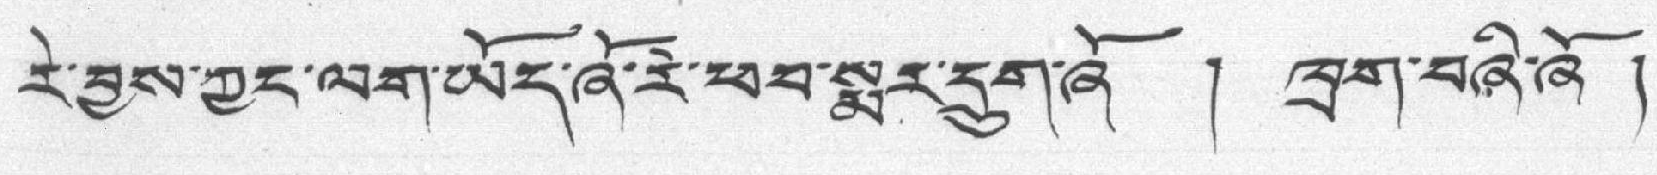རེ་བྱས་ཀྱང་ལག་ཡོད་ཞོ་རེ་ཕབ་སྨར་དྲུག་ཞོ ། ཁྲག་བཞི་ཞོ །
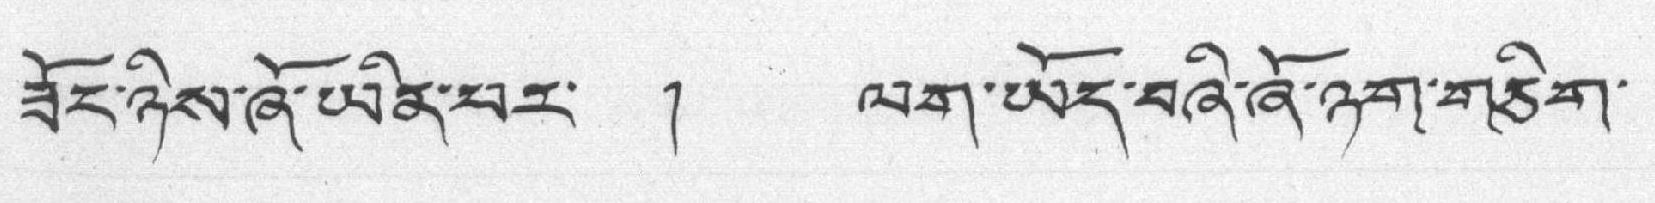ཟོང་ཉིས་ཞོ་ཡིན་པར་ ། ལག་ཡོད་བཞི་ཞོ་ཉག་གཅིག་
